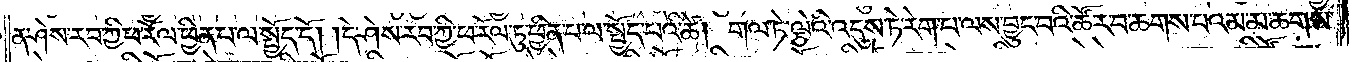ན་ཤེས་རབ་ཀྱི་ཕ་རོལ་ཏུ་ཕྱིན་པ་ལ་སྤྱོད་དོ། །དེ་ཤེས་རབ་ཀྱི་ཕ་རོལ་ཏུ་ཕྱིན་པ་ལ་སྤྱོད་པའི་ཚེ། གལ་ཏེ་ལྕེའི་འདུས་ཏེ་རེག་པ་ལས་བྱུང་བའི་ཚོར་བ་ཆགས་པའམ་མ་ཆགས་
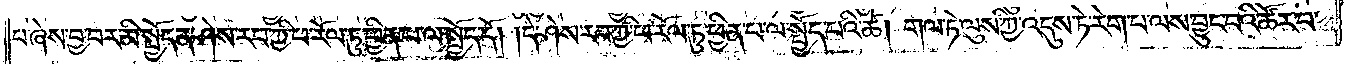པ་ཞེས་བྱ་བར་མི་སྤྱོད་ན་ཤེས་རབ་ཀྱི་ཕ་རོལ་ཏུ་ཕྱིན་པ་ལ་སྤྱོད་དོ། །དེ་ཤེས་རབ་ཀྱི་ཕ་རོལ་ཏུ་ཕྱིན་པ་ལ་སྤྱོད་པའི་ཚེ། གལ་ཏེ་ལུས་ཀྱི་འདུས་ཏེ་རེག་པ་ལས་བྱུང་བའི་ཚོར་བ་
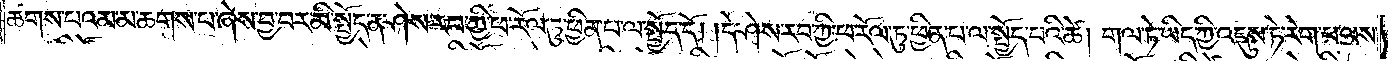ཆགས་པའམ་མ་ཆགས་པ་ཞེས་བྱ་བར་མི་སྤྱོད་ན་ཤེས་རབ་ཀྱི་ཕ་རོལ་ཏུ་ཕྱིན་པ་ལ་སྤྱོད་དོ། །དེ་ཤེས་རབ་ཀྱི་ཕ་རོལ་ཏུ་ཕྱིན་པ་ལ་སྤྱོད་པའི་ཚེ། གལ་ཏེ་ཡིད་ཀྱི་འདུས་ཏེ་རེག་པ་ལས་
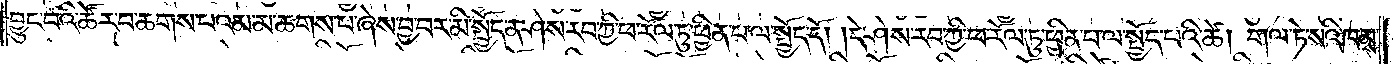བྱུང་བའི་ཚོར་བ་ཆགས་པའམ་མ་ཆགས་པ་ཞེས་བྱ་བར་མི་སྤྱོད་ན་ཤེས་རབ་ཀྱི་ཕ་རོལ་ཏུ་ཕྱིན་པ་ལ་སྤྱོད་དོ། །དེ་ཤེས་རབ་ཀྱི་ཕ་རོལ་ཏུ་ཕྱིན་པ་ལ་སྤྱོད་པའི་ཚེ། གལ་ཏེ་སའི་ཁམས་
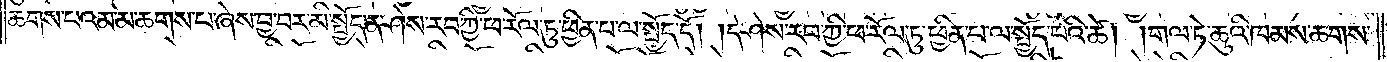ཆགས་པའམ་མ་ཆགས་པ་ཞེས་བྱ་བར་མི་སྤྱོད་ན་ཤེས་རབ་ཀྱི་ཕ་རོལ་ཏུ་ཕྱིན་པ་ལ་སྤྱོད་དོ། །དེ་ཤེས་རབ་ཀྱི་ཕ་རོལ་ཏུ་ཕྱིན་པ་ལ་སྤྱོད་པའི་ཚེ། གལ་ཏེ་ཆུའི་ཁམས་ཆགས་
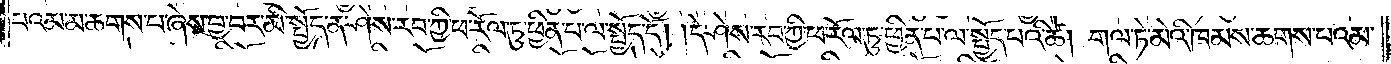པའམ་མ་ཆགས་པ་ཞེས་བྱ་བར་མི་སྤྱོད་ན་ཤེས་རབ་ཀྱི་ཕ་རོལ་ཏུ་ཕྱིན་པ་ལ་སྤྱོད་དོ། །དེ་ཤེས་རབ་ཀྱི་ཕ་རོལ་ཏུ་ཕྱིན་པ་ལ་སྤྱོད་པའི་ཚེ། གལ་ཏེ་མེའི་ཁམས་ཆགས་པའམ་
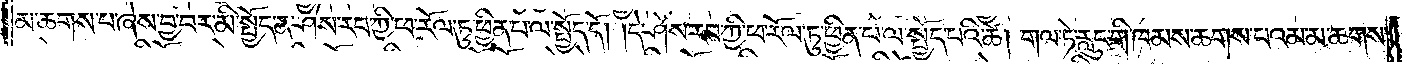མ་ཆགས་པ་ཞེས་བྱ་བར་མི་སྤྱོད་ན་ཤེས་རབ་ཀྱི་ཕ་རོལ་ཏུ་ཕྱིན་པ་ལ་སྤྱོད་དོ། །དེ་ཤེས་རབ་ཀྱི་ཕ་རོལ་ཏུ་ཕྱིན་པ་ལ་སྤྱོད་པའི་ཚེ། གལ་ཏེ་རླུང་གི་ཁམས་ཆགས་པའམ་མ་ཆགས་
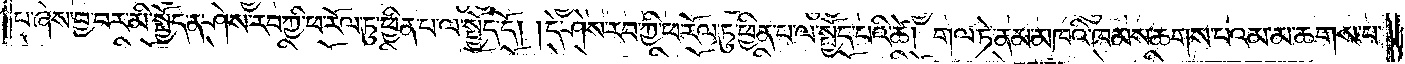པ་ཞེས་བྱ་བར་མི་སྤྱོད་ན་ཤེས་རབ་ཀྱི་ཕ་རོལ་ཏུ་ཕྱིན་པ་ལ་སྤྱོད་དོ། །དེ་ཤེས་རབ་ཀྱི་ཕ་རོལ་ཏུ་ཕྱིན་པ་ལ་སྤྱོད་པའི་ཚེ། གལ་ཏེ་ནམ་མཁའི་ཁམས་ཆགས་པའམ་མ་ཆགས་པ་
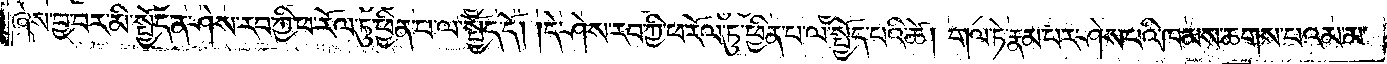ཞེས་བྱ་བར་མི་སྤྱོད་ན་ཤེས་རབ་ཀྱི་ཕ་རོལ་ཏུ་ཕྱིན་པ་ལ་སྤྱོད་དོ། །དེ་ཤེས་རབ་ཀྱི་ཕ་རོལ་ཏུ་ཕྱིན་པ་ལ་སྤྱོད་པའི་ཚེ། གལ་ཏེ་རྣམ་པར་ཤེས་པའི་ཁམས་ཆགས་པའམ་མ་
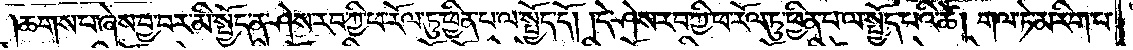ཆགས་པ་ཞེས་བྱ་བར་མི་སྤྱོད་ན་ཤེས་རབ་ཀྱི་ཕ་རོལ་ཏུ་ཕྱིན་པ་ལ་སྤྱོད་དོ། །དེ་ཤེས་རབ་ཀྱི་ཕ་རོལ་ཏུ་ཕྱིན་པ་ལ་སྤྱོད་པའི་ཚེ། གལ་ཏེ་མ་རིག་པ་
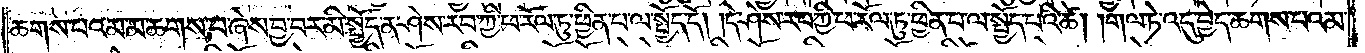ཆགས་པའམ་མ་ཆགས་པ་ཞེས་བྱ་བར་མི་སྤྱོད་ན་ཤེས་རབ་ཀྱི་ཕ་རོལ་ཏུ་ཕྱིན་པ་ལ་སྤྱོད་དོ། །དེ་ཤེས་རབ་ཀྱི་ཕ་རོལ་ཏུ་ཕྱིན་པ་ལ་སྤྱོད་པའི་ཚེ། གལ་ཏེ་འདུ་བྱེད་ཆགས་པའམ་
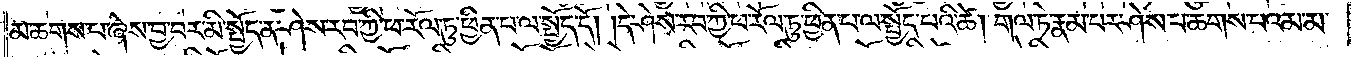མ་ཆགས་པ་ཞེས་བྱ་བར་མི་སྤྱོད་ན་ཤེས་རབ་ཀྱི་ཕ་རོལ་ཏུ་ཕྱིན་པ་ལ་སྤྱོད་དོ། །དེ་ཤེས་རབ་ཀྱི་ཕ་རོལ་ཏུ་ཕྱིན་པ་ལ་སྤྱོད་པའི་ཚེ། གལ་ཏེ་རྣམ་པར་ཤེས་པ་ཆགས་པའམ་མ་
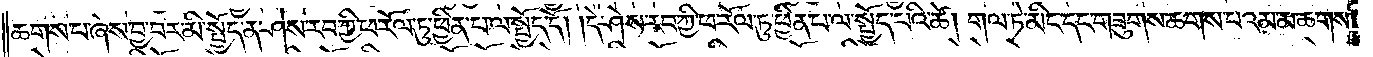ཆགས་པ་ཞེས་བྱ་བར་མི་སྤྱོད་ན་ཤེས་རབ་ཀྱི་ཕ་རོལ་ཏུ་ཕྱིན་པ་ལ་སྤྱོད་དོ། །དེ་ཤེས་རབ་ཀྱི་ཕ་རོལ་ཏུ་ཕྱིན་པ་ལ་སྤྱོད་པའི་ཚེ། གལ་ཏེ་མིང་དང་གཟུགས་ཆགས་པའམ་མ་ཆགས་
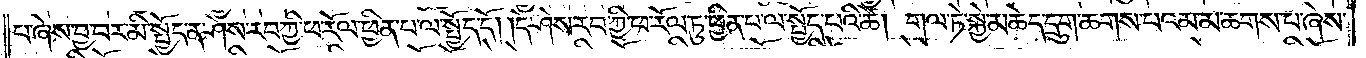པ་ཞེས་བྱ་བར་མི་སྤྱོད་ན་ཤེས་རབ་ཀྱི་ཕ་རོལ་ཏུ་ཕྱིན་པ་ལ་སྤྱོད་དོ། །དེ་ཤེས་རབ་ཀྱི་ཕ་རོལ་ཏུ་ཕྱིན་པ་ལ་སྤྱོད་པའི་ཚེ། གལ་ཏེ་སྐྱེ་མཆེད་དྲུག་ཆགས་པའམ་མ་ཆགས་པ་ཞེས་
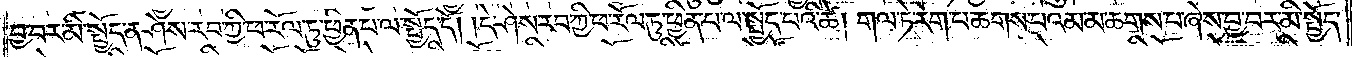བྱ་བར་མི་སྤྱོད་ན་ཤེས་རབ་ཀྱི་ཕ་རོལ་ཏུ་ཕྱིན་པ་ལ་སྤྱོད་དོ། །དེ་ཤེས་རབ་ཀྱི་ཕ་རོལ་ཏུ་ཕྱིན་པ་ལ་སྤྱོད་པའི་ཚེ། གལ་ཏེ་རེག་པ་ཆགས་པའམ་མ་ཆགས་པ་ཞེས་བྱ་བར་མི་སྤྱོད་
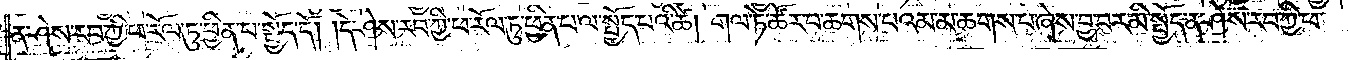ན་ཤེས་རབ་ཀྱི་ཕ་རོལ་ཏུ་ཕྱིན་པ་ལ་སྤྱོད་དོ། །དེ་ཤེས་རབ་ཀྱི་ཕ་རོལ་ཏུ་ཕྱིན་པ་ལ་སྤྱོད་པའི་ཚེ། གལ་ཏེ་ཚོར་བ་ཆགས་པའམ་མ་ཆགས་པ་ཞེས་བྱ་བར་མི་སྤྱོད་ན་ཤེས་རབ་ཀྱི་ཕ་
